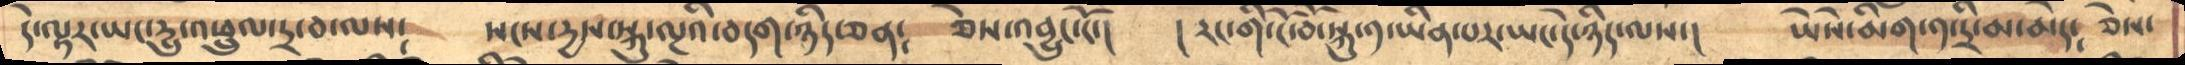དེ་ལྟར་ཡང་དྱུ་འཕྲུལ་དྲ་བ་ལས༴    སངས་དྱས་སྐུ་ལྔའི་བདག་ཉིད་ཅན༴    ཅེས་འབྱུང་ངོ་།   ། རང་གི་ངོ་བོ་སྐུ་༡་ཡིན་པར་ཡང་དེ་ཉིད་ལས་།  ཡེསེ་མིག་༡་དྲི་མ་མེད༴   ཅེས་
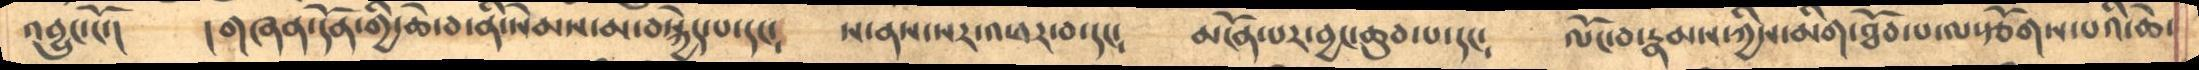འབྱུང་ངོ་།   །གཞན་དོན་གྱི་ཆེ་བ་ནི་སེམས་མ་བསྐྱེད་པ་དང༴   ས་ནས་སར་འཕར་བ་དང༴  མངོན་པར་བྱང་ཆུབ་པ་དང༴   ལོང་བ་རྣམས་ཀྱིས་མིག་ཐོབ་པ་ལ་སྩོགས་པའི་ཆེ་
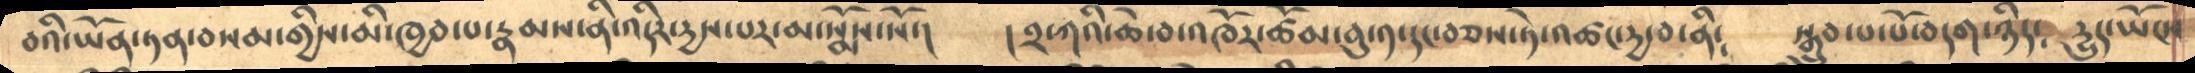བའི་ཡོན་ཏན་བསམ་གྱིས་མི་ཁྱབ་པ་རྣམས་ནི་འདིར་དྱས་པར་མ་སྨོས་སོ་།   །༢་ཀའི་ཆེ་བ་འཁོར་ཚོམ་བུ་༡་དང་བཅས་ཏེ་འཚང་དྱ་བ་ནི༴   སྒྲུབ་པ་པོ་བདག་ཉིད༴   དྱུད་ཡོངས
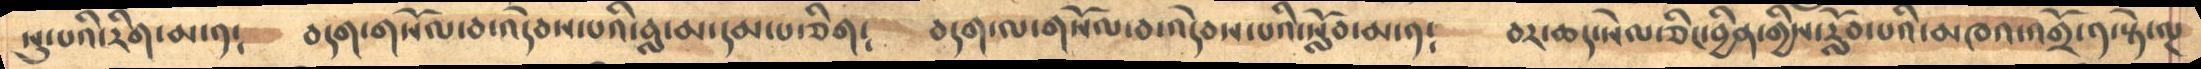སུ་པའི་རིག་མ་༡༴   བདག་གསོལ་བ་འདེབས་པའི་བླ་མ་དམ་པ་ཅིག༴   བདག་ལ་གསོལ་བ་འདེབས་པའི་སློབ་མ་༡༴  བར་ཆད་སེལ་ཅིང་བྱིན་གྱིས་རློབ་པའི་མཁའ་འགྲོ་༡་སྟེ་ལྔ
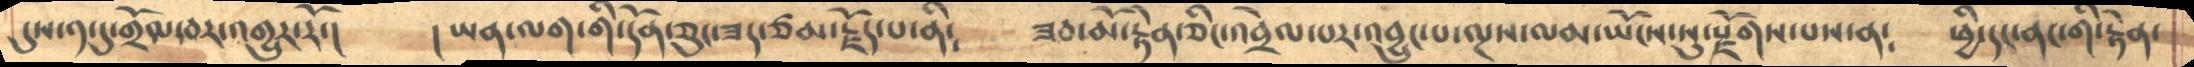དུས་༡་དུ་གྲོལ་བར་འགྱུར་རོ་།   ། ཡན་ལག་གི་དོན་ཅུང་ཟད་ཙམ་རྗོད་པ་ནི༴   ཟབ་མོ་རྟེན་ཅིང་འབྲེལ་པར་འབྱུང་པ་ལྔས་ལམ་ཡོངས་སུ་སྫོགས་པས་ན༴   ཕྱི་དང་ནང་གི་རྟེན་
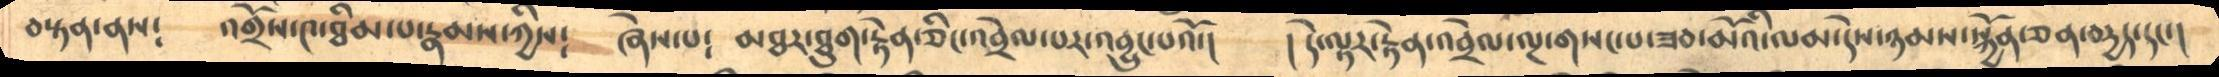བསྟན་ནས༴  འགྲོས་༤་ཐིམ་པ་རྣམས་ཀྱིས༴  ཞེས་པ༴   མཐར་ཐུག་རྟེན་ཅིང་འབྲེལ་པར་འབྱུང་པའོ་།    །དེ་ལྟར་རྟེན་འབྲེལ་ལྔ་གསང་པ་ཟབ་མོའི་ལམ་དེས་ཉམས་སྐྱོན་ཅན་བདྱད་དང་།
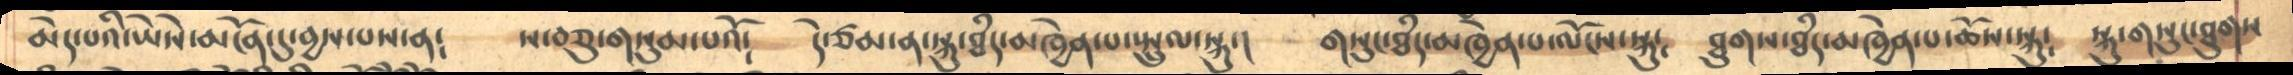མེད་པའི་ཡེསེ་མངོན་དུ་བྱས་པས་ན༴   ས་བཅུ་གསུམ་པའོ༴    དེ་ཙམ་ན་སྐུ་ཐྃད་མཁྱེན་པ་སྤྲུལ་སྐུ་།   གསུང་ཐྃད་མཁྱེན་པ་ལོངས་སྐུ༴   ཐུགས་ཐྃད་མཁྱེན་པ་ཆོས་སྐུ༴   སྐུ་གསུང་ཐུགས
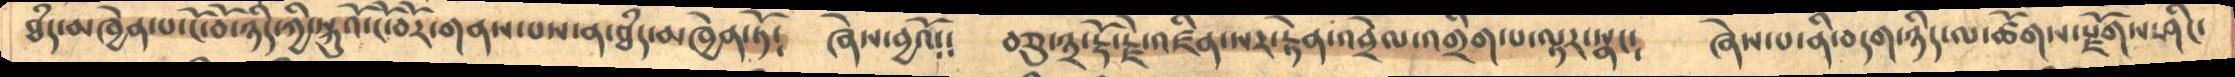ཐྃད་མཁྱེན་པ་ངོ་བོ་ཉིད་ཀྱི་སྐུའི་ངོ་བོར་གནས་པས་ན་ཐྃད་མཁྱེན་ཏོ༴  ཞེས་བྱའོ༴   བཅུ་༣་རྡོ་རྗེ་འཛིན་པར་རྟེན་འབྲེལ་འགྲིག་པ་ལྟར་སྣང༴   ཞེས་པ་ནི་བདག་ཉིད་ལ་ཚོགས་རྫོགས་ཤིང་
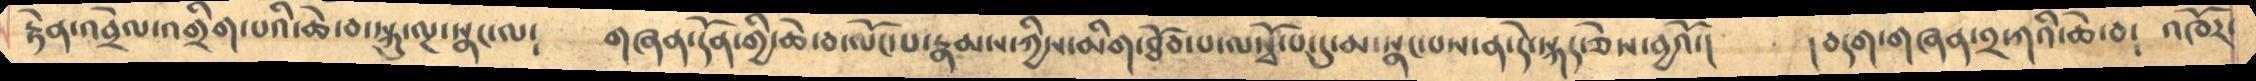རྟེན་འབྲེལ་འགྲིག་པའི་ཆེ་བ་སྐུ་ལྔ་སྣང་ལ༴   གཞན་དོན་གྱི་ཆེ་བ་ལོང་པ་རྣམས་ཀྱིས་མིག་ཐོབ་པ་ལསྭོ་པ་དུ་མ་སྣང་པས་ན་དེ་སྐད་ཅེས་བྱའོ་།   །བདག་གཞན་༢་ཀའི་ཆེ་བ༴   འཁོར་
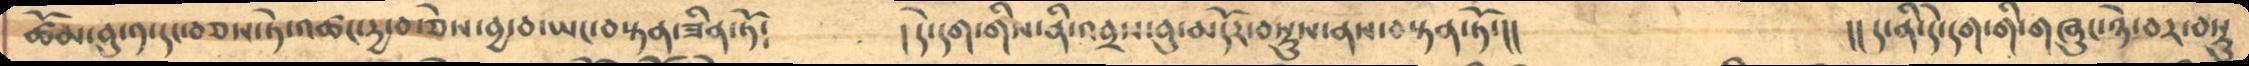ཚོམ་བུ་༡་དང་བཅས་ཏེ་འཚང་དྱ་བ་ཅེས་བྱ་བ་ཡང་བསྟན་ཟིན་ཏོ༴   །དེ་དག་གིས་ནི་འབྲས་བུ་མདོར་བསྡུས་ནས་བསྟན་ཏོ་།།                     །།ད་ནི་དེ་དག་གི་གཞུང་ཉེ་བར་བསྡུ
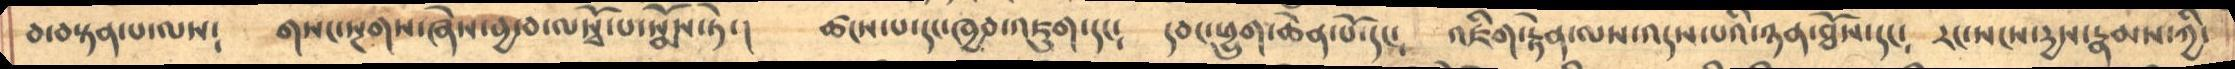བ་བསྟན་པ་ལས༴   གསང་སྔགས་ཞེས་བྱ་བ་ལསྭོ་པ་སྨོས་ཏེ་།    ཚངས་པ་དང་ཁྱབ་འཇུག་དང༴   དབང་ཕྱུག་ཆེན་པོ་དང༴   འཇིག་རྟེན་ལས་འདས་པའི་ཉན་ཐོས་དང༴   རང་སངས་དྱས་རྣམས་ཀྱི་
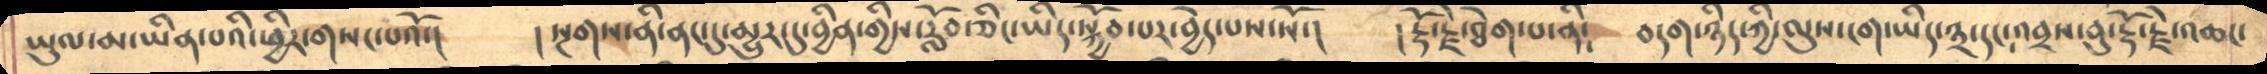ཡུལ་མ་ཡིན་པའི་ཕྱིར་གསང་པའོ་།    །སྔགས་ནི་ནང་དུ་མྱུར་དུ་བྱིན་གྱིས་རློབ་ཅིང་ཡིད་སྐྱོབ་པར་བྱེད་པས་སོ་།    །རྡོ་རྗེ་ཐེག་པ་ནི༴   བདག་ཉིད་ཀྱི་ལུས་ངག་ཡིད་༣་དང་འབྲས་བུ་རྡོ་རྗེ་འཆང་
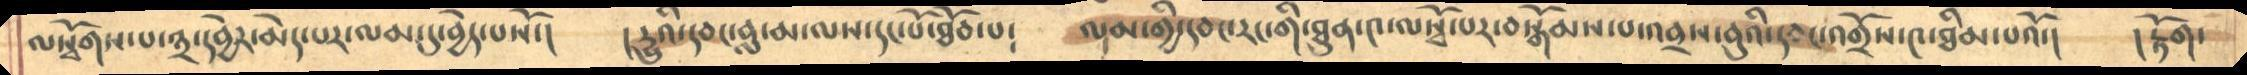ལསྭོགས་པ་༣་དབྱེར་མེད་པར་ལམ་དུ་བྱེད་པསོ་།    ། དྱུའི་དབང་བླ་མ་ལས་དང་པོ་ཐོབ་པ༴  ལམ་གྱི་དབང་རང་གི་ཐུན་༤་ལསྭོ་པར་བསྒོམས་པ་འབྲས་བུའི་དབང་འགྲོས་༤་ཐིམ་པའོ་།   །རྟོག་
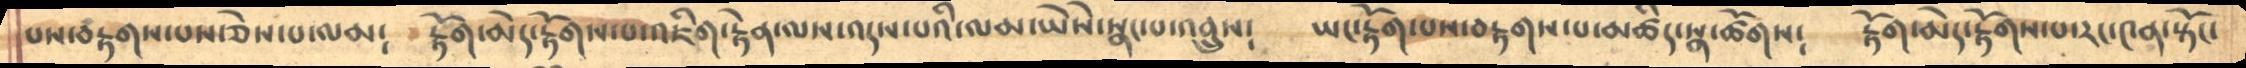པས་བརྟགས་པས་ཅེས་པ་ལམ༴   རྟོག་མེད་རྟོགས་པ་འཇིག་རྟེན་ལས་འདས་པའི་ལམ་ཡེསེ་སྣང་པ་འབྲུས༴   ཡང་རྟོག་པས་བརྟགས་པ་མཚིད་སྣ་ཚོགས༴   རྟོག་མེད་རྟོགས་པ་རང་༤ན་སྟོང་
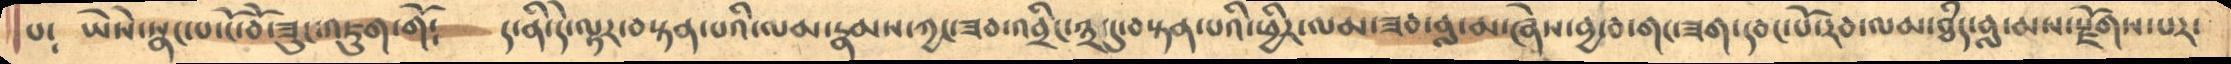པ༴   ཡེསེ་སྣང་པ་ངོ་བོ་ཟུང་འཇུག་གོ༴   ད་ནི་དེ་ལྟར་བསྟན་པའི་ལམ་རྣམས་ཀྱང་ཟབ་འབྲིང་༣་དུ་བསྟན་པའི་ཕྱིར་ལམ་ཟབ་བླ་མ་ཞེས་བྱ་བ་གང་ཟག་དབང་པོ་རབ་ལམ་ཐྃད་བླ་མས་རྫོགས་པར་
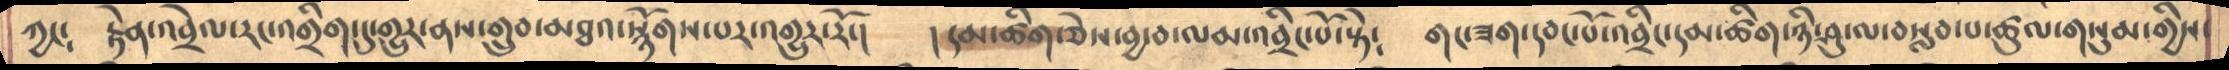ཀྱང༴   རྟེན་འབྲེལ་རང་འགྲིག་དུ་གྱུར་ནས་གྲུབ་མཐའ་སྙོགས་པར་འགྱུར་རོ་།   །དམ་ཚིག་ཅེས་བྱ་བ་ལམ་འབྲིང་པོ་སྟེ༴   གང་ཟག་དབང་པོ་འབྲིང་དམ་ཚིག་ཉི་ཤུ་ལ་བསླབ་པ་ཚུལ་གསུམ་གྱིས་
